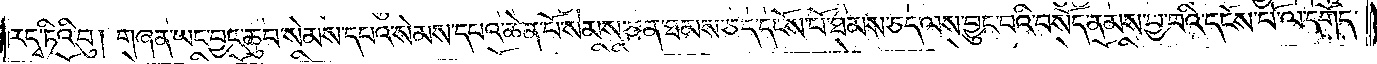ར་དྭ་ཏིའི་བུ། གཞན་ཡང་བྱང་ཆུབ་སེམས་དཔའ་སེམས་དཔའ་ཆེན་པོ་སེམས་ཅན་ཐམས་ཅད་དངོས་པོ་ཐམས་ཅད་ལས་བྱུང་བའི་བསོད་ནམས་བྱ་བའི་དངོས་པོ་ལ་དགོད་
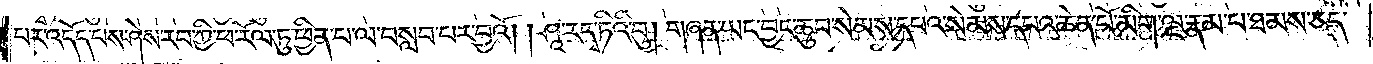པར་འདོད་པས་ཤེས་རབ་ཀྱི་ཕ་རོལ་ཏུ་ཕྱིན་པ་ལ་བསླབ་པར་བྱའོ། །ཤཱ་ར་དྭ་ཏིའི་བུ། གཞན་ཡང་བྱང་ཆུབ་སེམས་དཔའ་སེམས་དཔའ་ཆེན་པོ་མིག་ལྔ་རྣམ་པ་ཐམས་ཅད་
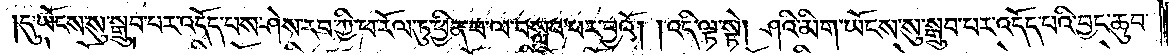དུ་ཡོངས་སུ་སྒྲུབ་པར་འདོད་པས་ཤེས་རབ་ཀྱི་ཕ་རོལ་ཏུ་ཕྱིན་པ་ལ་བསླབ་པར་བྱའོ། །འདི་ལྟ་སྟེ། ཤའི་མིག་ཡོངས་སུ་སྒྲུབ་པར་འདོད་པའི་བྱང་ཆུབ་
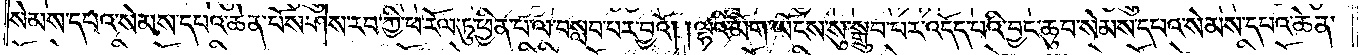སེམས་དཔའ་སེམས་དཔའ་ཆེན་པོས་ཤེས་རབ་ཀྱི་ཕ་རོལ་ཏུ་ཕྱིན་པ་ལ་བསླབ་པར་བྱའོ། །ལྷའི་མིག་ཡོངས་སུ་སྒྲུབ་པར་འདོད་པའི་བྱང་ཆུབ་སེམས་དཔའ་སེམས་དཔའ་ཆེན་
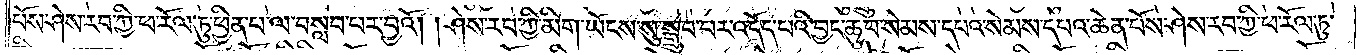པོས་ཤེས་རབ་ཀྱི་ཕ་རོལ་ཏུ་ཕྱིན་པ་ལ་བསླབ་པར་བྱའོ། །ཤེས་རབ་ཀྱི་མིག་ཡོངས་སུ་སྒྲུབ་པར་འདོད་པའི་བྱང་ཆུབ་སེམས་དཔའ་སེམས་དཔའ་ཆེན་པོས་ཤེས་རབ་ཀྱི་ཕ་རོལ་ཏུ་
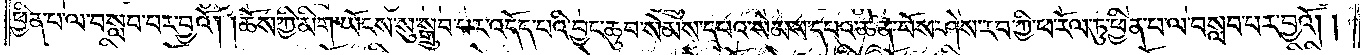ཕྱིན་པ་ལ་བསླབ་པར་བྱའོ། །ཆོས་ཀྱི་མིག་ཡོངས་སུ་སྒྲུབ་པར་འདོད་པའི་བྱང་ཆུབ་སེམས་དཔའ་སེམས་དཔའ་ཆེན་པོས་ཤེས་རབ་ཀྱི་ཕ་རོལ་ཏུ་ཕྱིན་པ་ལ་བསླབ་པར་བྱའོ། །
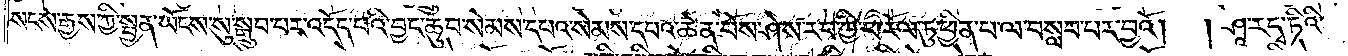སངས་རྒྱས་ཀྱི་སྤྱན་ཡོངས་སུ་སྒྲུབ་པར་འདོད་པའི་བྱང་ཆུབ་སེམས་དཔའ་སེམས་དཔའ་ཆེན་པོས་ཤེས་རབ་ཀྱི་ཕ་རོལ་ཏུ་ཕྱིན་པ་ལ་བསླབ་པར་བྱའོ། །ཤཱ་ར་དྭ་ཏིའི་
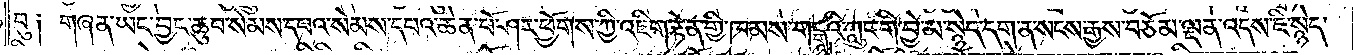བུ༑ གཞན་ཡང་བྱང་ཆུབ་སེམས་དཔའ་སེམས་དཔའ་ཆེན་པོ་ཤར་ཕྱོགས་ཀྱི་འཇིག་རྟེན་གྱི་ཁམས་གངྒཱའི་ཀླུང་གི་བྱེ་མ་སྙེད་དག་ན་སངས་རྒྱས་བཅོམ་ལྡན་འདས་ཇི་སྙེད་
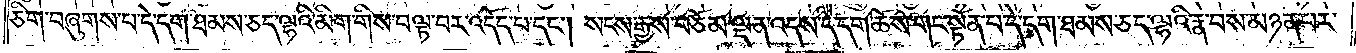ཅིག་བཞུགས་པ་དེ་དག་ཐམས་ཅད་ལྷའི་མིག་གིས་བལྟ་བར་འདོད་པ་དང༌། སངས་རྒྱས་བཅོམ་ལྡན་འདས་དེ་དག་ཆོས་གང་སྟོན་པ་དེ་དག་ཐམས་ཅད་ལྷའི་རྣ་བས་མཉན་པར་
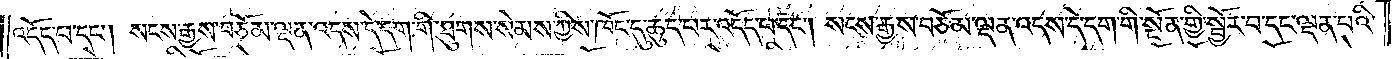འདོད་པ་དང༌། སངས་རྒྱས་བཅོམ་ལྡན་འདས་དེ་དག་གི་ཐུགས་སེམས་ཀྱིས་ཁོང་དུ་ཆུད་པར་འདོད་པ་དང༌། སངས་རྒྱས་བཅོམ་ལྡན་འདས་དེ་དག་གི་སྔོན་གྱི་སྦྱོར་བ་དང་ལྡན་པའི་
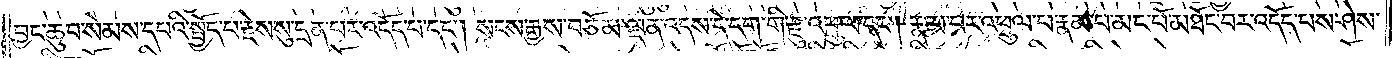བྱང་ཆུབ་སེམས་དཔའི་སྤྱོད་པ་རྗེས་སུ་དྲན་པར་འདོད་པ་དང༌། སངས་རྒྱས་བཅོམ་ལྡན་འདས་དེ་དག་གི་རྫུ་འཕྲུལ་དང༌། རྣམ་པར་འཕྲུལ་པ་རྣམ་པ་མང་པོ་མཐོང་བར་འདོད་པས་ཤེས་
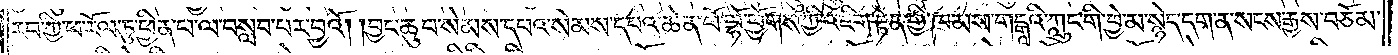རབ་ཀྱི་ཕ་རོལ་ཏུ་ཕྱིན་པ་ལ་བསླབ་པར་བྱའོ། །བྱང་ཆུབ་སེམས་དཔའ་སེམས་དཔའ་ཆེན་པོ་ལྷོ་ཕྱོགས་ཀྱི་འཇིག་རྟེན་གྱི་ཁམས་གངྒཱའི་ཀླུང་གི་བྱེ་མ་སྙེད་དག་ན་སངས་རྒྱས་བཅོམ་
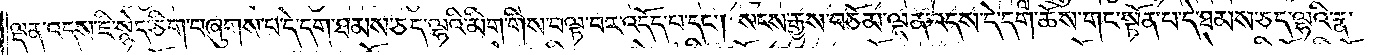ལྡན་འདས་ཇི་སྙེད་ཅིག་བཞུགས་པ་དེ་དག་ཐམས་ཅད་ལྷའི་མིག་གིས་བལྟ་བར་འདོད་པ་དང༌། སངས་རྒྱས་བཅོམ་ལྡན་འདས་དེ་དག་ཆོས་གང་སྟོན་པ་དེ་ཐམས་ཅད་ལྷའི་རྣ་
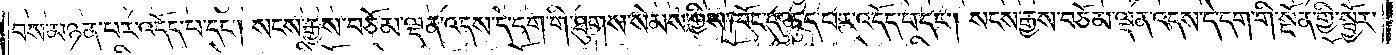བས་མཉན་པར་འདོད་པ་དང༌། སངས་རྒྱས་བཅོམ་ལྡན་འདས་དེ་དག་གི་ཐུགས་སེམས་ཀྱིས་ཁོང་དུ་ཆུད་པར་འདོད་པ་དང༌། སངས་རྒྱས་བཅོམ་ལྡན་འདས་དེ་དག་གི་སྔོན་གྱི་སྦྱོར་
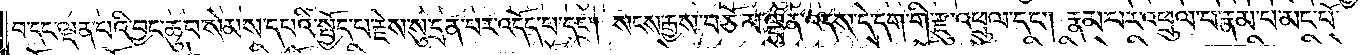བ་དང་ལྡན་པའི་བྱང་ཆུབ་སེམས་དཔའི་སྤྱོད་པ་རྗེས་སུ་དྲན་པར་འདོད་པ་དང༌། སངས་རྒྱས་བཅོམ་ལྡན་འདས་དེ་དག་གི་རྫུ་འཕྲུལ་དང༌། རྣམ་པར་འཕྲུལ་པ་རྣམ་པ་མང་པོ་
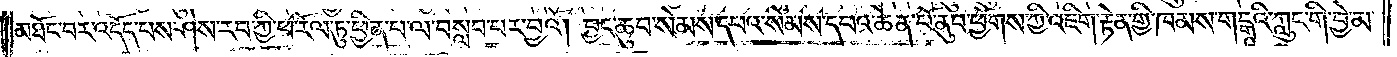མཐོང་བར་འདོད་པས་ཤེས་རབ་ཀྱི་ཕ་རོལ་ཏུ་ཕྱིན་པ་ལ་བསླབ་པར་བྱའོ། བྱང་ཆུབ་སེམས་དཔའ་སེམས་དཔའ་ཆེན་པོ་ནུབ་ཕྱོགས་ཀྱི་འཇིག་རྟེན་གྱི་ཁམས་གངྒཱའི་ཀླུང་གི་བྱེ་མ་
